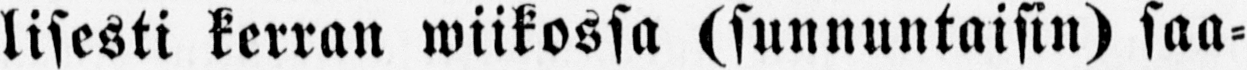lisesti kerran wiikossa (sunnuntaisin) saa-
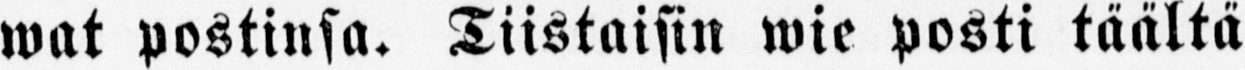wat postinsa. Tiistaisin wie posti täältä
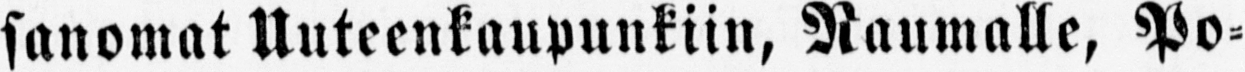sanomat Uuteenkaupunkiin, Raumalle, Po-
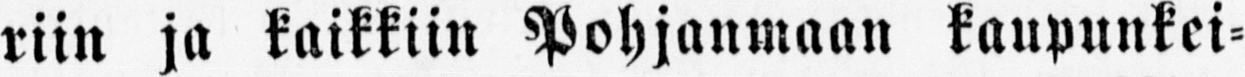riin ja kaikkiin Pohjanmaan kaupunkei-
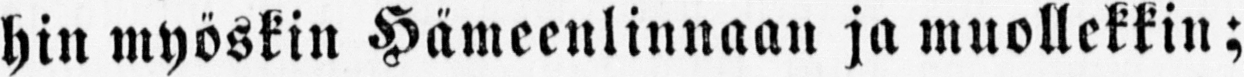hin myöskin Hämeenlinnaan ja muollekkin;
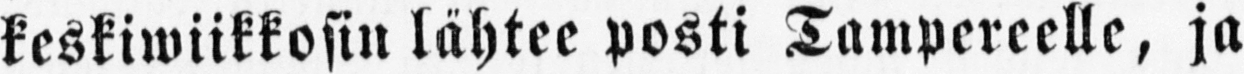keskiwiikkosin lähtee posti Tampereelle, ja
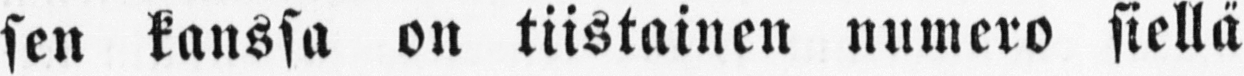sen kanssa on tiistainen numero siellä
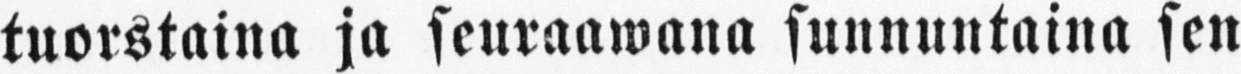tuorstaina ja seuraawana sunnuntaina sen
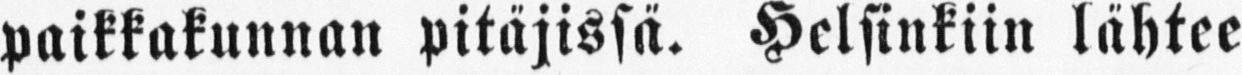paikkakunnan pitäjissä. Helsinkiin lähtee
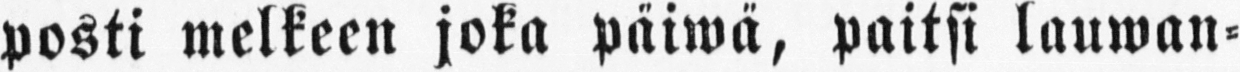posti melkeen joka päiwä, paitsi lauwan-
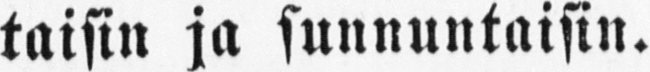taisin ja sunnuntaisin.
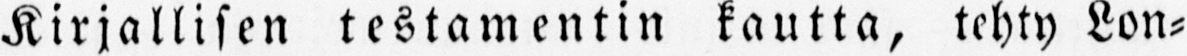Kirjallisen testamentin kautta, tehty Lon-
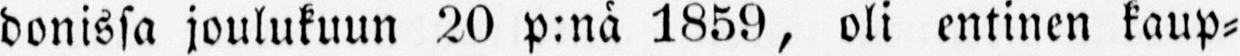donissa joulukuun 20 p:nä 1859, oli entinen kaup-
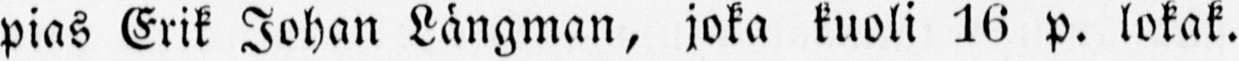pias Erik Johan Längman, joka kuoli 16 p. lokak.
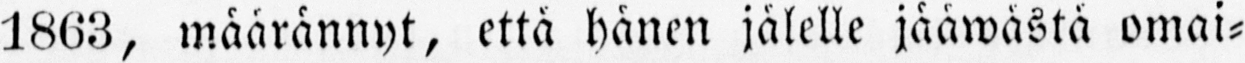1863, määrännyt, että hänen jälelle jääwästä omai-
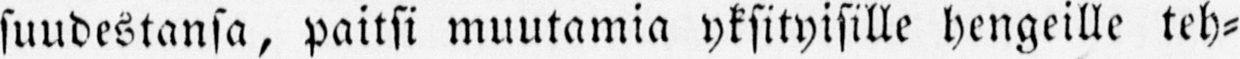suudestansa, paitsi muutamia yksityisille hengeille teh-
